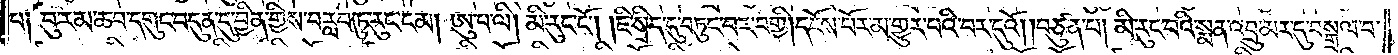པ༑ བུ་རམ་ཆབ་དགུང་བདུན་དུ་བྱིན་གྱིས་བརླབ་ཏུ་རུང་ངམ། ཨུ་པ་ལི། མི་རུང་ངོ༌། །ཇི་སྲིད་དུ་བཏུང་བར་བགྱི། དངོས་པོར་མ་གྱུར་པའི་བར་དུའོ། །བཙུན་པ། མི་རུང་བའི་སྨན་འབྲུ་མར་དུ་བསྒྲལ་བ་
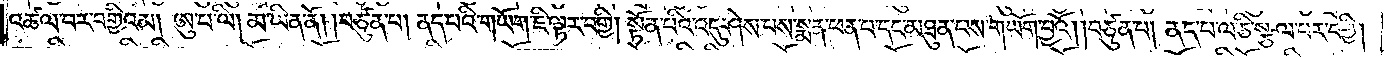འཚལ་བར་བགྱིའམ། ཨུ་པ་ལི། མ་ཡིན་ནོ། །བཙུན་པ། ནད་པའི་གཡོག་ཇི་ལྟར་བགྱི། སྟོན་པའི་འདུ་ཤེས་པས་སྨན་ཕན་པ་དང་མཐུན་པས་གཡོག་བྱའོ། །བཙུན་པ། ནད་པ་ལ་ཅི་སྩལ་བར་བགྱི།
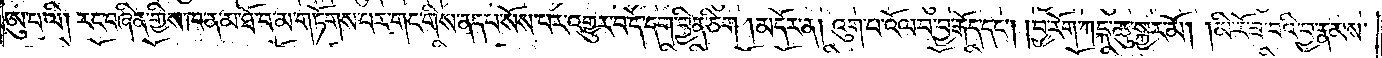ཨུ་པ་ལི། རང་བཞིན་གྱིས་ཁ་ན་མ་ཐོ་བ་མ་གཏོགས་པར་གང་གིས་ནད་པ་སོས་པར་འགྱུར་བ་དེ་དག་བྱིན་ཅིག །མདོར་ན། འུག་པ་འོལ་བ་བྱ་རྒོད་དང༌། །བྱ་རོག་ཀངྐ་ཆུ་སྐྱར་མོ། །མི་རོ་ཟའི་བྱ་རྣམས་
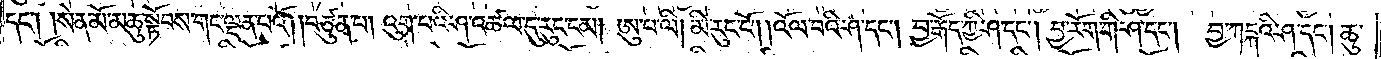དང༌། །སེན་མོ་མཆུ་སྟོབས་གང་ལྡན་པའོ། །བཙུན་པ། འུག་པའི་ཤ་འཚལ་དུ་རུང་ངམ། ཨུ་པ་ལི། མི་རུང་ངོ༌། །འོལ་བའི་ཤ་དང༌། བྱ་རྒོད་ཀྱི་ཤ་དང༌། བྱ་རོག་གི་ཤ་དང༌། བྱ་ཀངྐའི་ཤ་དང༌། ཆུ་
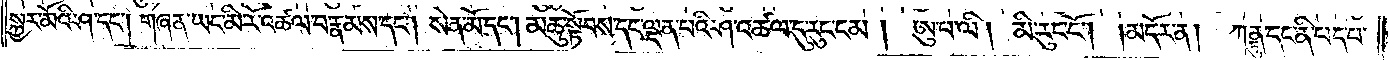སྐྱར་མོའི་ཤ་དང༌། གཞན་ཡང་མི་རོ་འཚལ་བ་རྣམས་དང༌། སེན་མོ་དང༌། མཆུ་སྟོབས་དང་ལྡན་པའི་ཤ་འཚལ་དུ་རུང་ངམ། ཨུ་པ་ལི། མི་རུང་ངོ༌། །མདོར་ན། ཀནྟུ་དང་ནི་པད་པ་
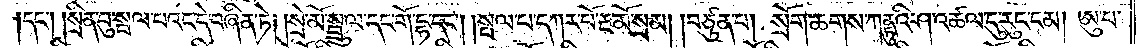།དང༌། །སྲིན་བུ་སྦལ་པའང་དེ་བཞིན་ཏེ། །སྲེ་མོ་སྦྲུལ་དང་གོ་དྷ་དང༌། །སྦལ་པ་དཀར་པོ་རྔ་མོ་སྲམ། །བཙུན་པ། སྲོག་ཆགས་ཀནྟུའི་ཤ་འཚལ་དུ་རུང་ངམ། ཨུ་པ་
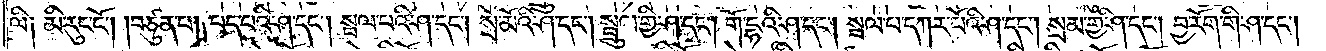ལི༑ མི་རུང་ངོ༌། །བཙུན་པ། པད་པའི་ཤ་དང༌། སྦལ་པའི་ཤ་དང༌། སྲེ་མོའི་ཤ་དང༌། སྦྲུལ་གྱི་ཤ་དང༌། གོ་དྷའི་ཤ་དང༌། སྦལ་པ་དཀར་པོའི་ཤ་དང༌། སྲམ་གྱི་ཤ་དང༌། བྱ་རོག་གི་ཤ་དང༌།
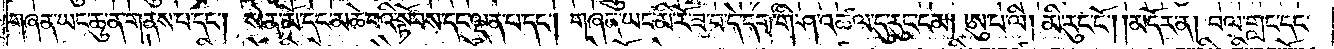གཞན་ཡང་ཆུ་ན་གནས་པ་དང༌། སེན་མོ་དང་མཆེ་བའི་སྟོབས་དང་ལྡན་པ་དང༌། གཞན་ཡང་མི་རོ་ཟ་བ་དེ་དག་གི་ཤ་འཚལ་དུ་རུང་ངམ། ཨུ་པ་ལི། མི་རུང་ངོ༌། །མདོར་ན། བལ་གླང་དང་
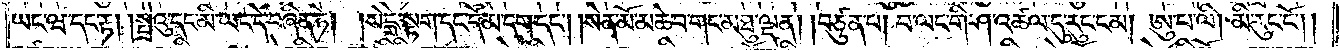ཡང་ཝ་དང་རྟ། །སྤྲེའུ་དང་མི་ཡང་དེ་བཞིན་ཏེ། །སེངྒེ་སྟག་དང་དོམ་དག་དང༌། །སེན་མོ་མཆེ་བ་གང་མཐུ་ལྡན། །བཙུན་པ། བ་ལང་གི་ཤ་འཚལ་དུ་རུང་ངམ། ཨུ་པ་ལི། མི་རུང་ངོ༌། །
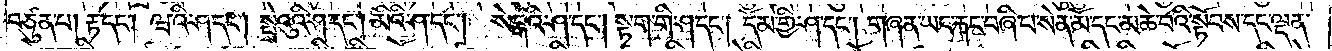བཙུན་པ། རྟ་དང༌། ཝའི་ཤ་དང༌། སྤྲེའུའི་ཤ་དང༌། མིའི་ཤ་དང༌། སེངྒེའི་ཤ་དང༌། སྟག་གི་ཤ་དང༌། དོམ་གྱི་ཤ་དང༌། གཞན་ཡང་རྐང་བཞི་པ་སེན་མོ་དང་མཆེ་བའི་སྟོབས་དང་ལྡན་
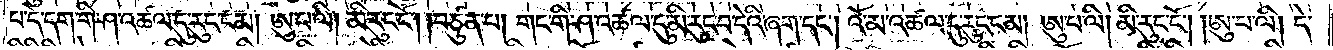པ་དེ་དག་གི་ཤ་འཚལ་དུ་རུང་ངམ། ཨུ་པ་ལི། མི་རུང་ངོ༌། །བཙུན་པ། གང་གི་ཤ་འཚལ་དུ་མི་རུང་བ་དེའི་ཞག་དང༌། འོ་མ་འཚལ་དུ་རུང་ངམ། ཨུ་པ་ལི། མི་རུང་ངོ༌། །ཨུ་པ་ལི། དེ་
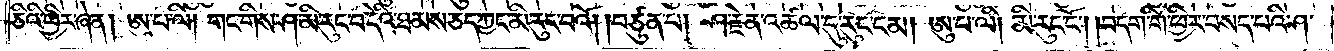ཅིའི་ཕྱིར་ཞེ་ན། ཨུ་པ་ལི། གང་གིས་ཤ་མི་རུང་བ་དེའི་ཐམས་ཅད་ཀྱང་མི་རུང་བའོ། །བཙུན་པ། ཤ་རྗེན་འཚལ་དུ་རུང་ངམ། ཨུ་པ་ལི། མི་རུང་ངོ༌། །བདག་གི་ཕྱིར་བསད་པའི་ཤ་
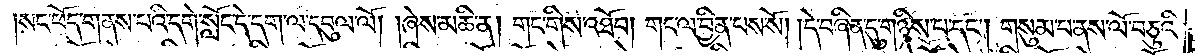།སང་ཕོད་གནས་པའི་དགེ་སློང་དེ་དག་ལ་དབུལ་ལོ། །ཞེས་མཆི་ན། གང་གིས་འཐོབ། གང་ལ་བྱིན་པས་སོ། །དེ་བཞིན་དུ་གཉིས་པ་དང༌། གསུམ་པ་ནས་ལོ་བཅུའི་
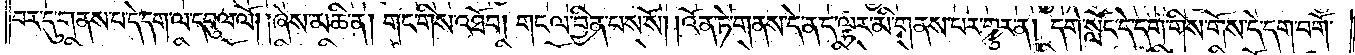བར་དུ་གནས་པ་དེ་དག་ལ་དབུལ་ལོ། །ཞེས་མཆི་ན། གང་གིས་འཐོབ། གང་ལ་བྱིན་པས་སོ། །འོན་ཏེ་གནས་དེ་ན་ད་ལྟར་མི་གནས་པར་གྱུར་ན། དགེ་སློང་དེ་དག་གིས་གོས་དེ་དག་བགོ་
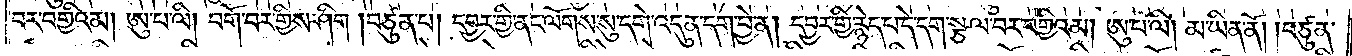བར་བགྱིའམ། ཨུ་པ་ལི། བགོ་བར་གྱིས་ཤིག །བཙུན་པ། དབྱར་གྱི་ནང་ལོགས་སུ་དགེ་འདུན་དག་བྱེ་ན། དབྱར་གྱི་རྙེད་པ་དེ་དག་སྩལ་བར་བགྱིའམ། ཨུ་པ་ལི། མ་ཡིན་ནོ། །བཙུན་
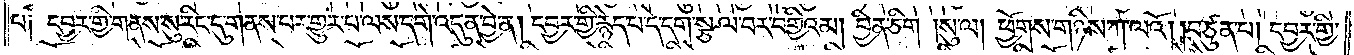པ༑ དབྱར་གྱི་གནས་སུ་རིང་དུ་གནས་པར་གྱུར་པ་ལས་དགེ་འདུན་བྱེ་ན། དབྱར་གྱི་རྙེད་པ་དེ་དག་སྩལ་བར་བགྱིའམ། བྱིན་ཅིག །སུ་ལ། ཕྱོགས་གཉིས་ཀ་ལའོ། །བཙུན་པ། དབྱར་གྱི་
